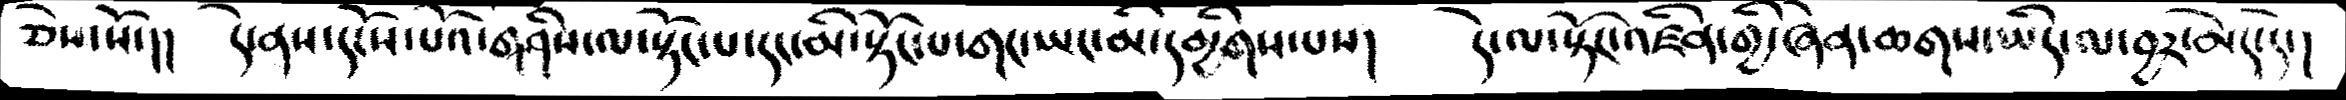ཅེས་སོ་།།   དེ་ནས་དངོས་པོའ་གཤིས་ལ་སྟོང་པ་དང་མི་སྟོང་པ་གང་ཡང་མི་དམྱིགས་པས།  དེ་ལ་སྟོང་འཛིན་གྱི་ཞེན་ཆགས་ཡིད་ལ་བྱར་མེད་དེ་།
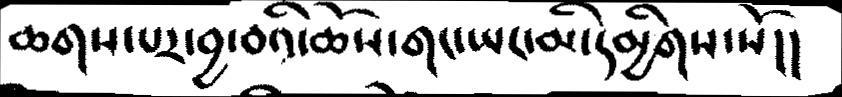ཆགས་པར་བྱ་བའི་ཆོས་གང་ཡང་མི་དམྱིགས་སོ།།
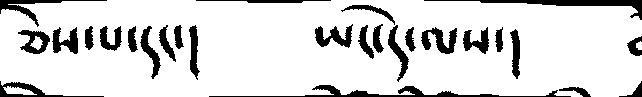ཅེས་པ་དང་།  ཡང་དེ་ལས་།
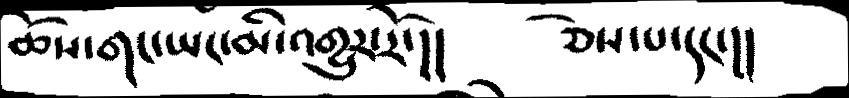ཆོས་གང་ཡང་མི་འགྱུར་རོ་།།   ཅེས་པ་དང་།།
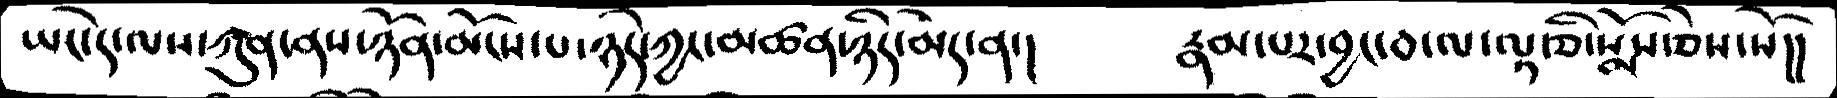ཡང་དེ་ལས་ཀུན་ནས་ཉོན་མོངས་པ་ཉིད་ཀྱང་མཚན་ཉིད་མེད་ན་།  རྣམ་པར་བྱ་བ་ལ་ལྟ་ཅི་སྨོས་ཅེས་སོ།།
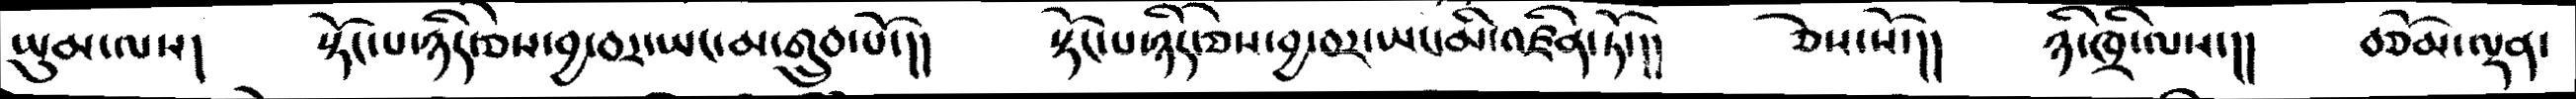ཡུམ་ལས།   སྟོང་པ་ཉིད་ཅེས་བྱ་བར་ཡང་མ་གྲུབ་པོ་།།  སྟོང་པ་ཉིད་ཅེས་བྱ་བར་ཡང་མི་འཛིན་ཏོ་།།   ཅེས་སོ་།།  ཉི་ཁྲི་ལས་།།   བཅོམ་ལྡན་
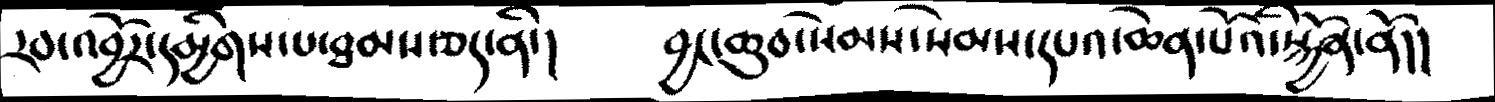རབ་འབྱོར་དམྱིགས་པ་ཐམས་ཅད་ནི་།   བྱང་ཆུབ་སེམས་སེམས་དཔའ་ཆེན་པོའི་སྐྱོན་ནོ།།
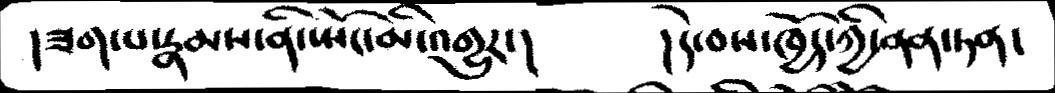།ཟག་པ་རྣམས་ནི་སྤོང་མི་འགྱུར་།    །དེ་བས་ཁྱོད་ཀྱི་ནན་ཏན་
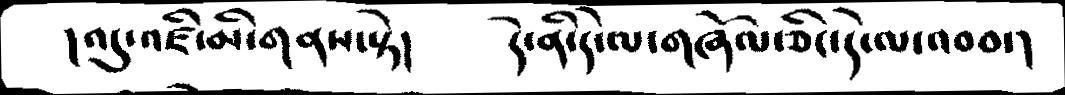།འདུ་འཛི་མི་གནས་སྟེ།   དེ་ནི་དེ་ལ་གཞོལ་ཅིང་དེ་ལ་འབབ་།
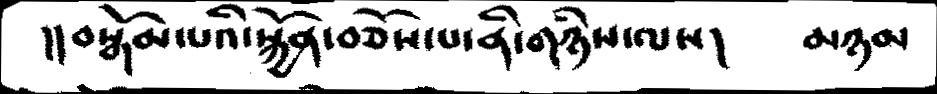།།བསྒོམ་པའི་སྐྱོན་བཅོས་པ་ནི་གཉིས་ལས།  མཉམ
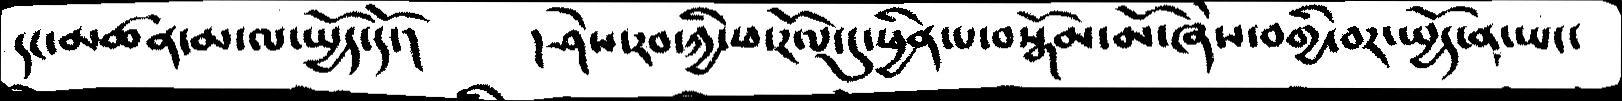དང་མཚན་མ་ལ་སྤྱོད་དོ་།  །ཤེས་རབ་ཀྱི་ཕ་རོལ་དུ་ཕྱིན་པ་བསྒོམ་མོ་ཞེས་བགྱི་བར་སྤྱོད་ན་ཡང་
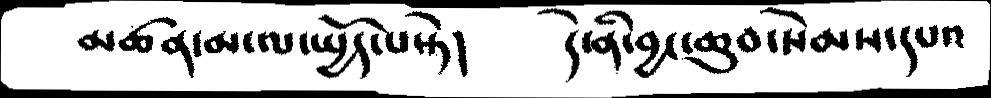མཚན་མ་ལ་སྤྱོད་པ་སྟེ།  དེ་ནི་བྱང་ཆུབ་སེམས་དཔའ
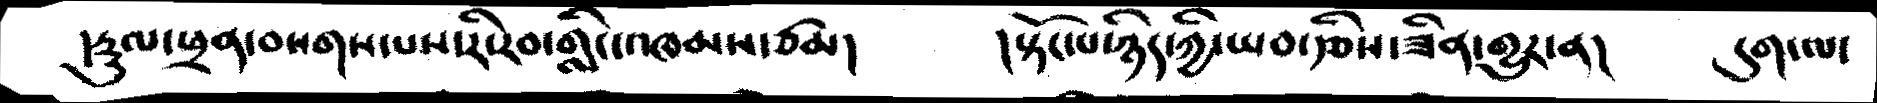།རྡུལ་ཕྲན་བསགས་པས་རི་རབ་གླིང་འཁམས་ཙམ།   །སྟོང་པ་ཉིད་ཀྱི་ཡབ་རྩིས་ཟིན་གྱུར་ན།  དུག་ལ་
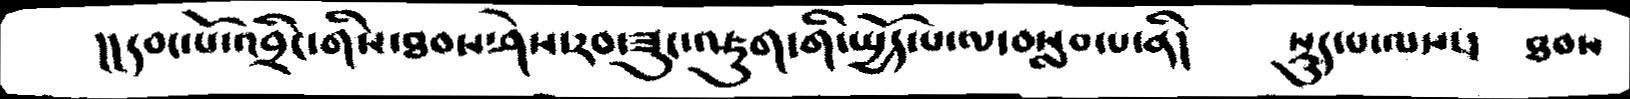།།དབང་པོ་འབྲིང་གིས་ཐབས་ཤེས་ཟུང་འཇུག་གི་སྤྱོད་པ་ལ་བསླབ་པ་ནི།   སྡུད་པ་ལས་  ཐབས
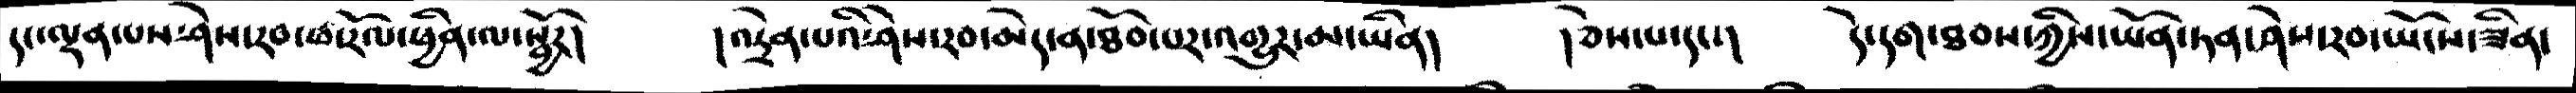དང་ལྡན་པས་ཤེས་རབ་ཕ་རོལ་ལ་སྦྱོར།  །འདྲེན་པའི་ཤེས་རབ་མེད་ན་ཐོབ་པར་འགྱུར་མ་ཡིན།  །ཅེས་པ་དང་།  དེ་དག་ཐབས་ཀྱིས་ཡོན་ཏན་ཤེས་རབ་ཡོངས་ཟིན་
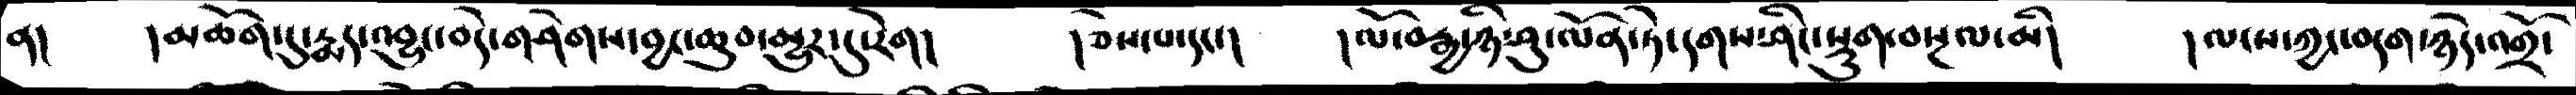ན།  །མཆོག་དུ་རྨད་འབྱུང་བདེ་གཤེགས་བྱང་ཆུབ་མྱུར་དུ་རེག།  །ཅེས་པ་དང་།  །ལོ་བརྒྱ་ཉི་ཤུ་ལོན་ཏེ་དགས་ཞིང་སྡུག་བསྔལ་མི།  །ལངས་ཀྱང་བདག་ཉིད་འགྲོ་
